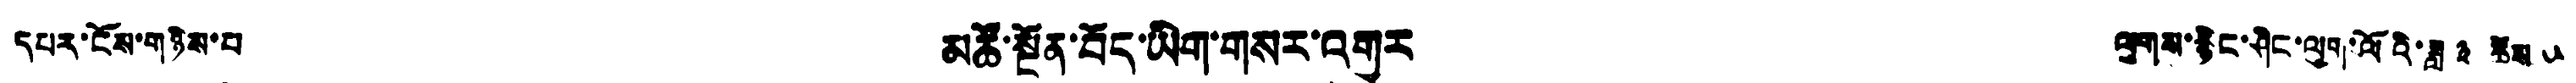དཔར་ངོས་གཉིས་པ མཚོ་སྔོན་བོད་ཡིག་གསར་འགྱུར ལུགས་རྙིང་ཤིང་ལུག་ལོའི་ཟླ ༣ ཚེས ༥
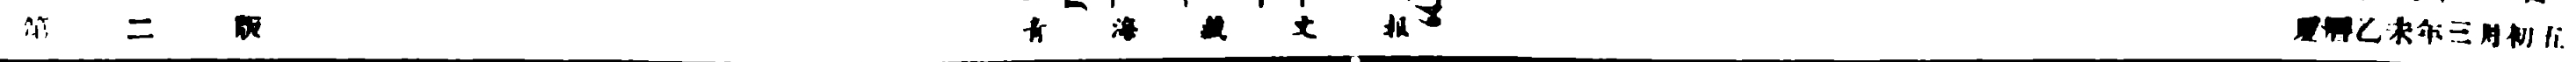第 二 版 青海藏文報 夏曆乙未年三月初五
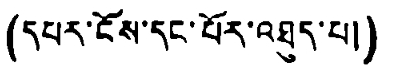(དཔར་ངོས་དང་པོར་འཐུད་པ།)
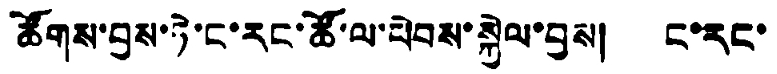ཚོགས་བྱས་ཏེ་ང་རང་ཚོ་ལ་ཕེབས་སྐྱེལ་བྱས། ང་རང་
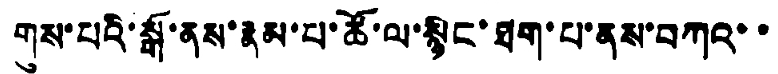གུས་པའི་སྒོ་ནས་རྣམ་པ་ཚོ་ལ་སྙིང་ཐག་པ་ནས་བཀའ་་
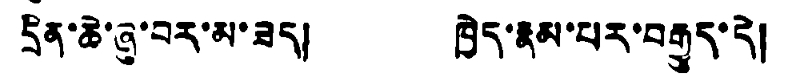དྲིན་ཆེ་ཞུ་བར་མ་ཟད། ཁྱེད་རྣམ་པར་བརྒྱུད་དེ།
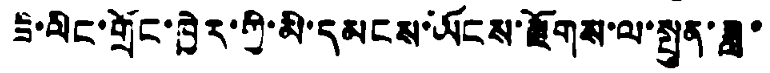ཟི་ལིང་གྲོང་ཁྱེར་གྱི་མི་དམངས་ཡོངས་རྫོགས་ལ་སྤུན་ཟླ་
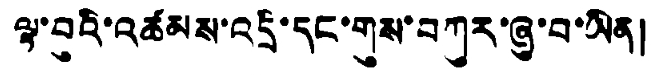ལྟ་བའི་འཚམས་འདྲི་དང་གུས་བཀུར་ཞུ་བ་ཡིན།
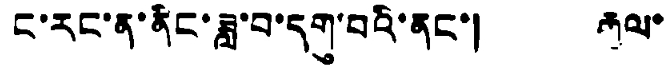ང་རང་ན་ནིང་ཟླ་བ་དགུ་པའི་ནང་། རྒྱལ་
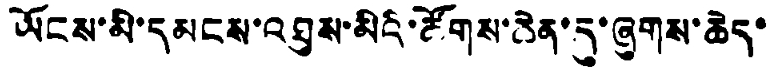ཡོངས་མི་དམངས་འཐུས་མིའི་ཚོགས་ཆེན་དུ་ཞུགས་ཆེད་
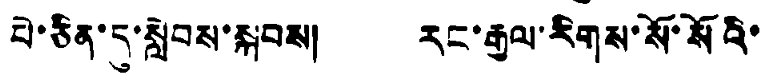པེ་ཅིན་དུ་སླེབས་སྐབས། རང་རྒྱལ་རིགས་སོ་སོའི་
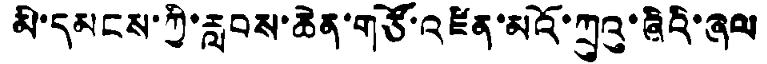མི་དམངས་ཀྱི་རླབས་ཆེན་གཙོ་འཛིན་མའོ་ཀྲུའུ་ཞིའི་ཞལ
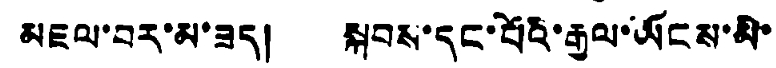མཇལ་བར་མ་ཟད། སྐབས་དང་པོའི་རྒྱལ་ཡོངས་མི་
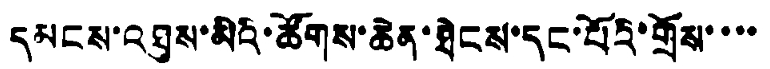དམངས་འཐུས་མིའི་ཚོགས་ཆེན་ཐེངས་དང་པོའི་གྲོས་་་་་
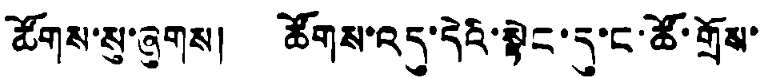ཚོགས་སུ་ཞུགས། ཚོགས་འདུ་དེའི་སྟེང་དུ་ང་ཚོ་གྲོས་
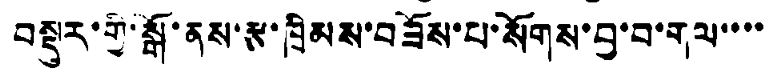བསྡུར་གྱི་སྒོ་ནས་རྩ་ཁྲིམས་བཟོས་པ་སོགས་བྱ་བ་གལ་་་་་
